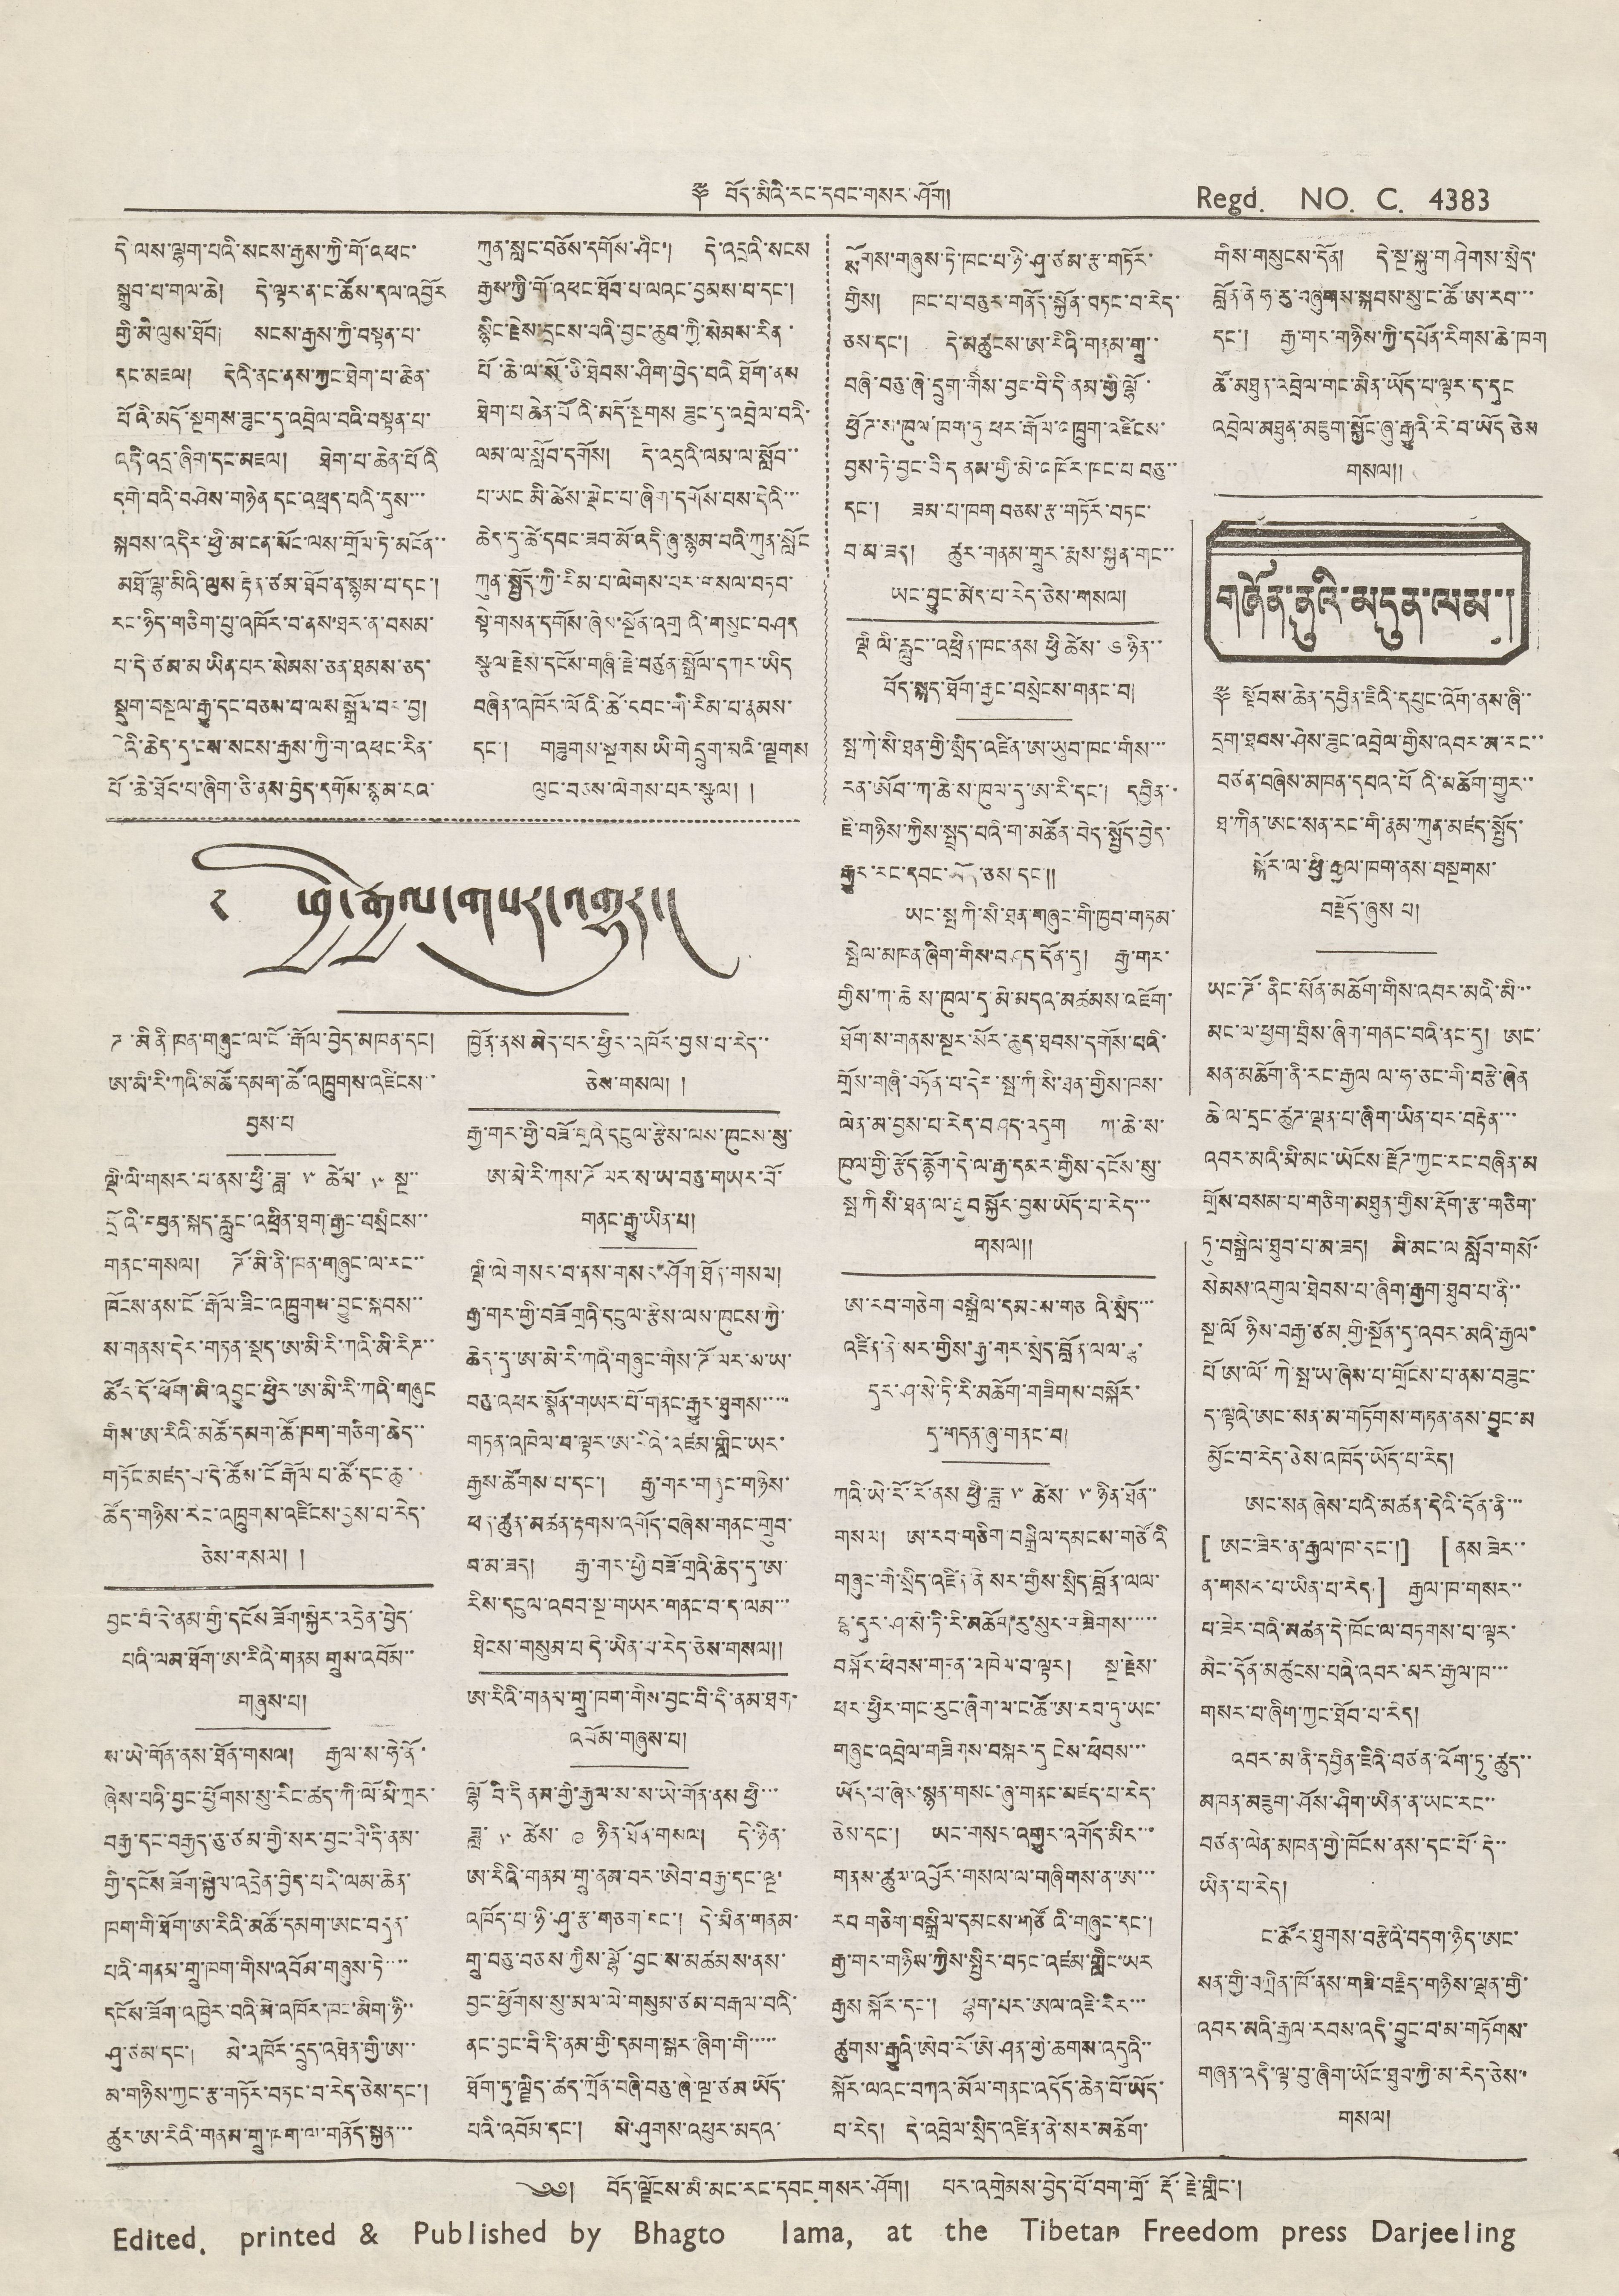༈ བོད་མིའི་རང་དབང་གསར་ཤོག། Regd. NO. C. 4383
ཀུན་སླང་བཅོས་དགོས་ཤིང་། དེ་འདྲའི་སངས
རྒྱས་ཀྱི་གྲོ་འཕང་ཐོབ་པ་ལའང་བྱམས་པ་དང་།
སྙིང་རྗེས་དྲངས་པའི་བྱང་ཆུབ་ཀྱི་སེམས་རིན་
པོ་ཆེ་ལ་སོ་ཅི་ཐེབས་ཤིག་བྱེད་པའི ཐོག་ནས
ཐེག་པ ཆེན་པོའི་མདོ་སྔགས ཟུང་དུ་འབྲེལ་བའི་
ལམ་ལ་སློབ་དགོས། དེ་འདྲའི་ལམ་ལ་སློབ་་
པ་ཡང མི་ཆཚེས་སྡེང་པ་ཞིག་དགོས་པས་དེའི་་་
ཆེད་དུ་ཚེ་དབང་ཟབ་མོ་འདི་ཞུ་སྙམ་པའི་ཀུན་སློང
ཀུན་སྤྱོད་ཀྱི་རིམ་པ་ལེགས་པར་གསལ་བཏབ་
སྟེ་གསན་དགོས་ཞེས་སྔོན་འགྲུའི་གསུང་བཤད
སྩལ་རྗེས་དངོས་གཞི་རྗེ་བཙུན་སྒྲོལ་དཀར་ཡིད
བཞིན་འཁོར་ལོའི་ཚེ་དབང་གི་རིམ་པ་རྣམས་
དང་།  གཟུགས་སྔགས་ཡི་གེ་དྲུག་མའི་ལྗགས
ལུང་བཅས་ལེགས་པར་སྩལ། །
སོགས་གཞུས་ཏེ་ཁང་པ་ཉི་ཤུ་ཙམ་རྩ་གཏོར་
གྱིས། ཁང་པ་བཅུར་གནོད་སྐྱོན་བཏང་བ་རེད་
ཅས་དང་། དེ་མཚུངས་ཨ་རིའི་གནམ་གྲུ་་
བཞི་བཅུ་ཞེ་དྲུག་གིས་བྱུང་བི་དི་ནམ་གྱི་ལྷོ་
ཕྱོཊ་ས་ཁུལ་ཁག་ཏུ་ཕར་རྒོལ་འཁྲུག་འཛིངས་
བྱས་ཏེ་བྱང་བི་ད་ནམ་གྱི་མེ་འཁོར་ཁང་བཅུ་་
དང་། ཟམ་པ་ཁག བཅས་རྩ་གཏོར་བཏང་
བ་མ་ཟད། ཚུར་གནམ་གྲུར་རྨས་སྐྱུན་གང་་
ཡང་བྱུང་མེད་པ་རེད་ཅེས་གསལ།
ལྡི ལི་རླུང་་འཕྲིན་ཁང་ནས ཕྱི་ཚེས་ ༦ ཉིན་་
བོད་སྐད་ཐོག་རྒྱང་བསྲེངས་གནང་བ།
སྤ་ཀེ་སི་ཐན་གྱི་སྲིད་འཛིན་ཨ་ཡུབ་ཁང་གིས་་་
རན་ཨོབ་ཀ་ཆེ་ས་ཁུལ་དུ་ཨ་རི་དང་། དབྱིན་་
ཇི་གཉིས་ཀྱིས་སྤྲད་པའི་ག་མཚོན་བེདེ་སྤྱོད་བྱེད་
རྒྱུར་རང་དབང་ཡོད་ཅས་དང་།།
གིས་གསུངས་དོན། དེ་སྔ་སྐུ་གཤེགས་སྲིད་
བློན་ནེ་ཧ་རུ་བཞུགས་སྐབས་སུ་ང་ཚོ་ཨ་རབ་་་
དང་། རྒྱ་གར་གཉིས་ཀྱི་དཔོན་རིགས་ཆེ་ཁག
ཚོ་མཐུན་འབྲེལ་གང་མིན་ཡོད་པ་ལྟར་ད་དུང
འབྲེལ་མཐུན་མཇུག་སྐྱོང་ཞུ་རྒྱུའི་རེ་བ་ཡོད ཅེས
གསལ།།
གཞོན་ནུའི་མདུན་ལམ་།
༈ སྟོབས་ཆེན་དབྱིན་ཇིའི་དཔུང་འོག་ནས་ཞི་་
དྲུག་ཐབས་ཤེས་ཟུང་འབྲེལ་གྱིས་འབར་མ་རང་་
བཙན་བཞེས་མཁན་དཔའ་པོའི་མཆོག་གྱུར་་
ཐ་ཀིན་ཨང་སན་རང་གི་རྣམ་ཀུན་མཛད་སྤྱོད་
སྐོར་ལ་ཕྱི་རྒྱལ་ཁག་ནས་བསྔགས་
བརྗོད་ཞུས པ།
ཌ་མི ནི་ཁན་གཞུང་ལ་ངོ་རྒོལ་བྱེད་མཁན་དང།
ཨ་མི་རི་ཀའི་མཚོ་དམག་ཚེ་འཁྲུགས་འཛིངས་་
བྱས་པ།
ཁྱོན་ནས་མེད་པར་ཕྱིར་འཁོར་བྱས་པ་རེད་་
ཅེས་གསལ། །
ལྡི་ལི་གསར་པ་ནས་ཕྱི་ཟླ་ ༥ ཚེམ་ ༥༥ སྔ་་
དྲོའི་དབུན་སྐད་རླུང་འཕྲིན་ཐག་རྒྱང་བསྲིངས་་
གནང་གསལ། ཌོ་མི་ནི་ཁན་གཞུང་ལ་རང་་
ཁོངས་ནས་ངོ་རྒོལ་ཟིང་འཁྲུགས་བྱུང་སྐབས་་
ས་གནས་དེར་གཏན་སྡད་ཨ་མི་རི་ཀའི་མི་རིཊ་་
ཚོར་དོ་ཕོག་མི་འབྱུང་ཕྱིར་ཨ་མི་རི་ཀའི་གཞུང
གིས་ཨ་རིའི་མཚོ་དམག་ཚོ་ཁག་གཅིག་ཆེད་་
གཏོང་མཛད་པ་དེ་ཚོས་ངོ རྒོལ་པ་ཚོ་དང་ཆུ་
ཚོད་གཉིས་རིང་འཁྲུགས་འཛིངས་བྱས་པ་རེད་
ཅེས་གསལ། །
རྒྱ་གར་གྱི་བཟོ་གྲྭའི་དངུལ་རྩིས་ལས་ཁུངས་སུ་
ཨ་མེ་རི་ཀས་ཌོ་ལར་ས་ཡ་བཅུ་གཡར་པོ་
གནང་རྒྱུ་ཡིན་པ།
ལྡི་ལེ་གསར་བ་ནས་གསར་ཤོག་ཐོན་གསལ།
རྒྱ་གར་གྱི་བཟོ་གྲའི་དངུལ་རྩིས་ལས་ཁུངས་ཀྱི་
ཆེད་དུ་ཨ་མེ་རི་ཀའི་གཞུང་གིས་ཌོ་ལར་ས་ཡ་
བཅུ་འཕར་སྣོན་གཡར་པོ་གནང་རྒྱུར་ཐུགས་་་་་
གཏན་འཁེལ་བ་ལྟར་ཨ་རིའི་འཛམ་གླིང་ཡར་
རྒྱས་ཚོགས་པ་དང་། རྒྱ་གར་གཞུང་གཉིས་
ཕན་ཚུན་མཚན་རྟགས་འགོད་བཞེས་གནང་གྲུབ་
བ་མ་ཟད། རྒྱ་གར་གྱི་བཟོ་གྲྭའི་ཆེད་དུ་ཨ་
རིས་དངུལ་འབབ་སྔ་གཡར་གནང་བ་ད་ལམ་་་
ཐེངས་གསུམ་པ དེ་ཡིན་པ་རེད་ཅེས་གསལ།།
ཡང་སྤ ཀི་སི་ཐན་གཞུང་གི་ཁྱབ་གཏམ་
སྤེལ་མཁན་ཞིག་གིས་བཤད་དོན་དུ། རྒྱ་གར་
གྱིས་ཀ་ཆེས་ཁུལ་དུ་མེ་མདའ་མཚམས་འཇོག་
ཐོག་ས་གནས་སྔར་སོར་ཆུད་ཐབས་དགོས་པའི་
གྲོས་གཞི་བཏོན་པ་དེར་སྤ་ཀི་སི་ཐན་གྱིས་ཁས་
ལེན་མ་བྱས་པ་རེད་བཤད་འདུག ཀ་ཆེ་ས་
ཁུལ་གྱི་རྩོད་རྙོག་དེ་ལ་རྒྱ་དམར་གྱིས་དངོས་སུ་
སྤ་ཀི སི་ཐན་ལ་རྒྱབ་སྐྱོར་བྱས་ཡོད་པ་རེད་་་
གསལ།།
ཨ་རབ་གཅིག བསྒྲེལ་དམངས་གཅའི་སྲིད་་་
འཛིན་ནེ་སར་གྱིས་རྒྱ་གར་སྲིད་བློན་ལལ་ལྷ་
དར་ཤ་སེ་ཏི་རི་མཆོག་གཟིགས་བསྐོར་
དུ་གདན་ཞུ་གནང་བ།
ཡང་ཌོ་ནིང་སོན་མཆོག་གིས་འབར་མའི་མི་་་
མང་ལ་ཕྱག་བྲིས་ཞིག་གནང་བའི་ནང་དུ། ཨང་
སན་མཆོག་ནི་རང་རྒྱལ ལ་ཧ་ཅང་གི་བརྩེ་ཞེན
ཆེ་ལ་དྲང་ཚུཊ་ལྡན་པ་ཞིག་ཡིན་པར་བརྟེན་་་
འབར་མའི་མི་མང་ཡོངས་རྫོཊ་ཀྱང་རང་བཞིན་མ
གྲོས་བསམ་པ་གཅིག་མཐུན་གྱིས་རྡོག་རྩ་གཅིག་
ཏུ་བསྒྲིལ་ཐུབ་པ་མ་ཟད། མི་མང་ལ སློབ་གསོ་
སེམས་འགུལ་ཐེབས་པ་ཞིག་རྒྱག་ཐུབ་པ་ནི་་
སྔ་ལོ ཉིས་བརྒྱ་ཙམ གྱི་སྔོན་དུ་འབར་མའི་རྒྱལ་
པོ ཨ་ལོ་ཀེ་སྤུ་ཡ་ཞེས་པ་གྲོངས་པ་ནས་བཟུང་
ད་ལྟའི་ཨང་སན་མ་གཏོགས་གཏན་ནས་བྱུང་མ
མྱོང་བ་རེད་ཅེས་འཁོད་ཡོད་པ་རེད།།
བྱུང་བི་དེ་ནམ་གྱི་དངོས ཟོག་སྐྱེར་འདྲེན་བྱེད་
པའི་ལམ་ཐོག་ཨ་རིའི་གནམ གྲས་འབོམ་་
གཞུས་པ།
ས་ཡེ་གོན་ནས་ཐོན་གསལ། རྒྱལ་ས་ཧེ་ནོ་
ཞེས་པའི་བྱང་ཕྱོགས་སུ་རིང་ཚད་ཀྱི་ལོ་མི་ཀྲར་
བརྒྱ་དང་བརྒྱད་ཅུ་ཙམ་གྱི་སར་བྱུང་བི་དི་ནམ་
གྱི་དངོས ཟོག་སྐྱེལ་འདྲེན་བྱེད་པའི་ལམ་ཆེན་
ཁག་གི་ཐོག་ཨ་རིའི་མཚོ་དམག་ཨང་བདུན་
པའི་གནམ་གྲུ་ཁག་གིས་འབོམ་གཞུས་ཏེ་་་་
དངོས་ཟོག་འཁྱེར་བའི་མེ་འཁོར་ཁང་མིག་ཉི་་
ཤུ་ཙམ་དང་། མེ་འཁོར་དྲུད་འཐེན་གྱི་ཨ་་
མ་གཉིས་ཀྱང་རྩ་གཏོར་བཏང་བ་རེད་ཅེས་དང་།
ཚུར་ཨ་རིའི་གནམ་གྲུ་ཁག་ལ་གནོད་སྐྲུན་་་
ཨ་རིའི་གནས་གྲུ་ཁག་གིས་བྱང་བི་དི་ནམ་ཐག་
འབོམ་གཞུས་པ།
ལྷོ བི་དི ནམ་གྱི་རྒྱལ་ས་ས་ཡེ་གོན་ནས ཕྱི་་་
ཟླ་ ༥ ཚེས་ ༩ ཉིན་ཐོན་གསལ། དེ་ཉིན་
ཨ་རིའི་གནམ་གྲུ་ནམ་བར་ཨེབ་བརྒྱ་དང་ལྔ་
འཁོད་པ་ཉི་ཤུ་རྩ་གཅག་དང་། དེ་མིན་གནམ་
གྲྭ་བཅུ་བཅས་ཀྱིས་ལྷོ་བྱང་ས་མཚམས་ནས་
བྱང་ཕྱོགས་སུ་མལ་ལེ་གསུམ་ཙམ་བརྒལ་བའི་
ནང་བྱུང་བི་དི་ནམ་གྱི་དམག་སྒར་ཞིག་གི་་་་་
ཐོག་ཏུ་ལྗིད་ཚད་ཀྲོན་བཞི་བཅུ་ཞེ་ལྔ་ཙམ་ཡོད་
པའི་འབོམ་དང་། སེ་ཤུགས་འཕུར་མདའ་
ཀའི་ཡེ་རོ་རོ་ནས ཕྱི་ཟླ་ ༥ ཚེས་ ༥ ཉིན་ཐོན་་
གསལ། ཨ་རབ་གཅིག་བསྒྲིལ་དམངས་གཙོའི་
གཞུང་གི་སྲིད་འཛིན་ནེསར་གྱིས་སྲིད་བློན་ལལ་
ལྷ་དུར་ཤ་སེ་ཏི་རི་མཆོག་རུ་སུར་གཟིགས་་་་་་
བསྐོར་ཕེབས་གཏན་འཁེལ་བ་ལྟར། སྔ་རྗེས་
ཕར་ཕྱིར་གང་རུང་ཞིག་ལ་ང་ཚོ་ཨ་རབ་ཏུ་ཡང་
གཞུང་འབྲེལ་གཟིགས་བསྐུར་དུ་ངེས་ཕེབས་་་
ཡོད་པ་ཞེས་སྙན་གསང་ཞུ་གནང་མཛད་པ་རེད་
ཅེས་དང་། ཡང་གསར་འགྱུར་འགོད་མིར་་་
གནས་ཚུལ་འབྱོར་གསལ་ལ་གཞིགས་ན་ཨ་་་
རབ གཅིག་བསྒྲིལ་དམངས་གཙོའི་གཞུང་དང་།
རྒྱ་གར་གཉིས་ཀྱིས་སྤྱིར་བཏང་འཛམ་གླིང་ཡར་
རྒྱས སྐོར་དང་། ལྷག་པར་ཨལ་འཇི་རིར་་་
ཚུགས་རྒྱུའི་ཨེབ་རོ་ཨེ་ཤན་གྱི་ཆགས་འདུའི་་
སྐོར་ལའང་བཀའ་མོལ་གནང་འདོད་ཆེན་པོ་ཡོད་
པ་རེད། དེ་འབྲེལ་སྲིད་འཛིན་ནེ་སར་མཆོག་
ཨང་སན ཞེས་པའི་མཚན་དེའི་དོན་ནི་་་
[ཨང་ཟེར་ན་རྒྱལ་ཁ་དང་།]   [ནས་ཟེར་་
ན་གསར་པ་ཡིན་པ་རེད]  རྒྱལ་ཁ་གསར་་
པ་ཟེར་བའི་མཚན་དེ་ཁོང་ལ་བཏགས་པ་ལྟར་
མིང་དོན་མཚུངས་པའི་འབར་མར་རྒྱལ་ཁ་་་
གསར་པ་ཞིག་ཀྱང་ཐོབ་པ་རེད།།
འབར་མ་ནི་དབྱིན་ཇིའི་བཙན་འོག་ཏུ་ཚུད་་
མཁན་མཇུག་ཤོས་ཤིག་ཡིན་ན་ཡང་རང་་
བཙན་ལེན་མཁན་གྱི་ཁོངས་ནས་དང་པོ་དེ་་
ཡིན་པ་རེད།
ང་ཚོར་ཐུགས་བརྩེའི་བདག་ཉིད་ཨང་
སན་གྱི་བཀྲིན་ཁོ་ནས་གཟི་བརྗིད་གཉིས་ལྡན་གྱི་
འབར་མའི་རྒྱལ་རབས་འདི་བྱུང་བ་མ་གཏོགས་
གཞན་འདི་ལྟ་བུ་ཞིག་ཡོང་ཐུབ་ཀྱི་མ་རེད་ཅེས་་
གསལ།
༄ ཕྱི་རྒྱལ་གསར་འགྱུར།
དེ་ལས་ལྷག་པའི་སངས་རྒྱས་ཀྱི་གོ་འཕང་
སྒྲུབ་པ་གལ་ཆེ། དེ་ལྟར་ན་ང་ཚོས་དལ་འབྱོར
གྱི་མི་ལུས་ཐོབ། སངས་རྒྱས་ཀྱི་བསྟན་པ་
དང་མཇལ། དེའི་ནང་ནས་ཀྱང་ཐེག་པ་ཆེན་
པོའི་མདོ་སྔགས་ཟུང་དུ་འབྲེལ་བའི་བསྟན་པ་
འདི་འདྲ་ཞིག་དང་མཇལ། ཐེག་པ་ཆེན་པོའི
དགེ་བའི་བཤེས་གཉེན དང་འཕྲད་པའི་དུས་་་
སྐབས་འདིར་ཕྱི་མ་ངན་སོང་ལས་གྲོལ་ཏེ་མངོན་་
མཐོ་ལྷ་མིའི་ལུས རྟེན་ཙམ་ཐོབ་ན་སྙམ་པ་དང་།
རང་ཉིད་གཅིག་པུ་འཁོར་བ་ནས་ཐར་ན་བསམ་
པ་དེ་ཙམ་མ ཡིན་པར་སེམས་ཅན་ཐམས་ཅད་
སྡུག་བསྔལ་རྒྱུ་དང་བཅས་པ་ལས་སྒྲོལ་བར་བྱ།
དེའི་ཆེད་དུ་ངས་སངས་རྒྱས་ཀྱི་གོ་འཕང་རིན་
པོ་ཆེ་ཐོང་པ་ཞིག་ཅི་ནས་བྱེད་དགོས་སྙམ་པའ་
༄༅། བོད་ལྗོངས་མི་མང་རང་དབང གསར་ཤོག།   པར་འགྲེམས་བྱེད་པོ་བག་གྲོ་ རྡོ་རྗེ་གླིང་།
Edited printed & Published by Bhagto lama, at the Tibetan Freedom press Darjeeling
